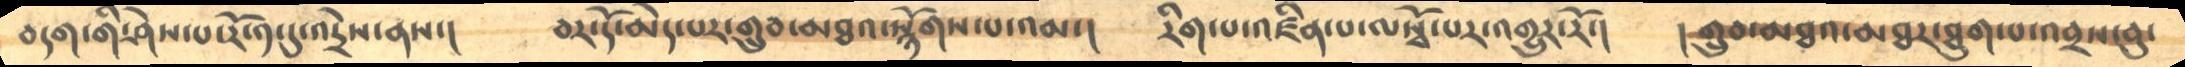བདག་གི་ཤེས་པ་རོ་༡་དུ་འདྲེས་ནས་།      བར་དོ་མེད་པར་གྲུབ་མཐའ་སྙོགས་པ་འམ་།      རིག་པ་འཛིན་པ་ལསྭོ་པར་འགྱུར་རོ་།        །གྲུབ་མཐའ་མཐར་ཐུག་པ་འབྲས་བུ་
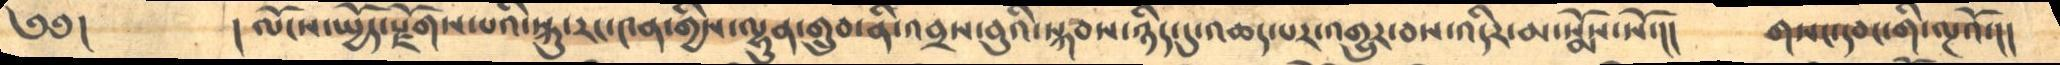༄༅།      །ལོངས་སྤྱོད་རྫོགས་པའི་སྐུ་རང་༤ན་གྱིས་ལྷུན་གྲུབ་ནི་འབྲས་བུའི་སྐབས་ཉིད་དུ་འཆད་པར་འགྱུར་བས་འདིར་མ་སྨོས་སོ་།།    གསང་དབང་གི་ལྔའོ་།།
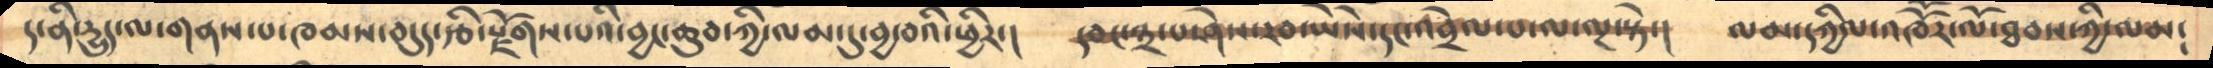ད་ནི་དྱུད་ལ་གནས་པ་ཁམས་བདུད་རྩི་རྫོགས་པའི་བྱང་ཆུབ་ཀྱི་ལམ་དུ་བྱ་བའི་ཕྱིར་།     དབང་༣་པ་ཤེས་རབ་ཡཻས་དང་འབྲེལ་པ་ལ་ལྔ་སྟེ་།   ལམ་དཀྱིལ་འཁོར་ལོ་ཐབས་ཀྱི་ལམ༴
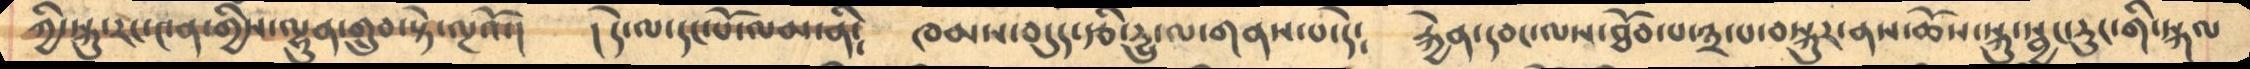ཀྱི་སྐུ་རང་༤ན་གྱིས་ལྷུན་གྲུབ་སྟེ་ལྔའོ་།     །དེ་ལ་དང་པོ་ལམ་ནི༴     ཁམས་བདུད་རྩི་དྱུ་ལ་གནས་པ་དེ༴      རྐྱེན་དབང་ལས་ཐོབ་པ་༣་པ་བསྐུར་ནས་ཆོས་སྐུ་སྦྱང་རུང་གི་སྐལ
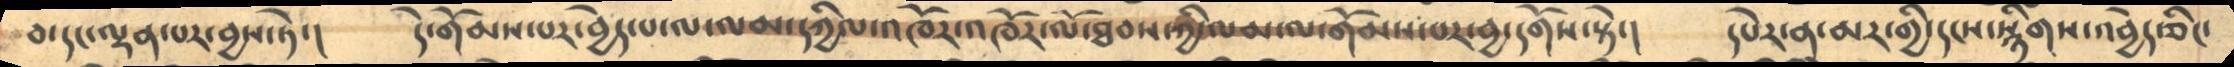བ་དང་ལྡན་པར་བྱས་ཏེ་།     དེ་གོམས་པར་བྱེད་པ་ལ་ལམ་དཀྱིལ་འཁོར་འཁོར་ལོ་ཐབས་ཀྱི་ལམ་ལ་གོམས་པར་བྱ་དགོས་སྟེ་།      དཔེར་ན་མར་གྱི་དངས་སྙིགས་འབྱེད་ཅིང་
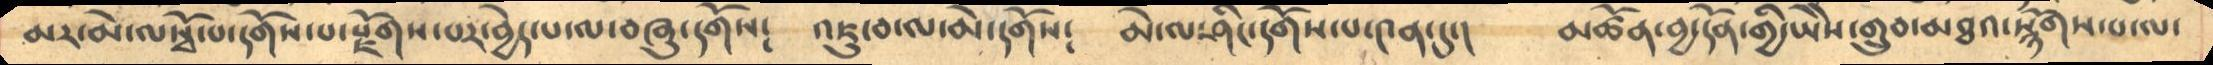མར་མེ་ལསྭོ་པ་དགོས་པ་རྫོགས་པར་བྱེད་པ་ལ་བཞུ་དགོས༴      འཇུ་བ་ལ་མེ་དགོས༴      མེ་ལ་ཤིང་དགོས་པ་༤ན་དུ་།     མཚོན་བྱ་དོན་གྱི་ཡཻས་གྲུབ་མཐའ་སྙོགས་པ་ལ་
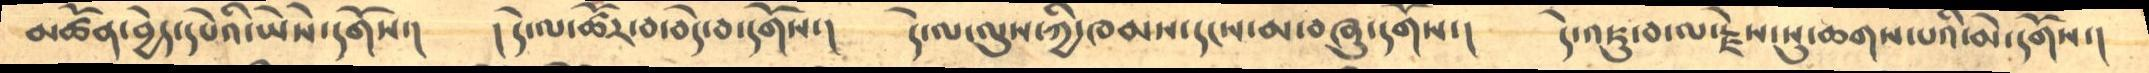མཚོན་བྱེད་དཔེའི་ཡཻས་དགོས་།        །དེ་ལ་ཚོར་བ་བདེ་བ་དགོས་།     དེ་ལ་ལུས་ཀྱི་ཁམས་དངས་མ་བཞུ་དགོས་།     དེ་འཇུ་བ་ལ་རྗེས་སུ་ཆགས་པའི་མེ་དགོས་།
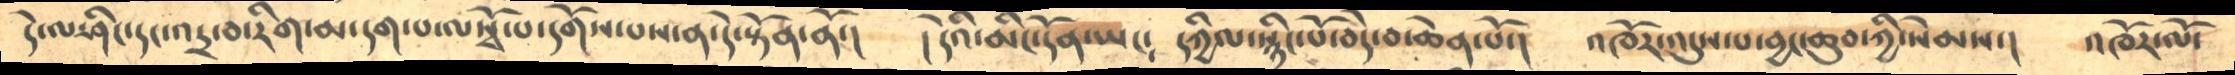དེ་ལ་ཤིང་དང་འདྲ་བ་རིག་མ་དག་པ་ལསྭོ་པ་དགོས་པས་ན་དེ་སྟོན་ནོ་།        །དེའི་མིང་དོན་ཡང༴  དཀྱིལ་སྙིང་པོ་བདེ་བ་ཆེན་པོ་།    འཁོར་འདུས་པ་བྱང་ཆུབ་ཀྱི་སེམས་།    འཁོར་ལོ་
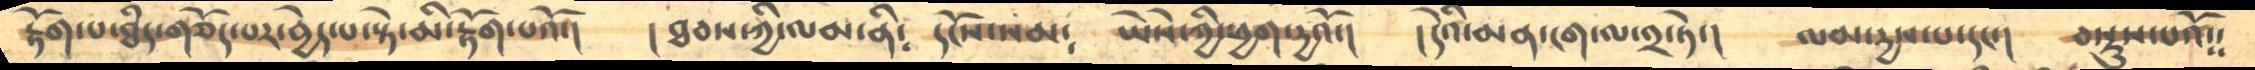རྟོག་པ་ཐཾད་གཅོད་པར་བྱེད་པ་སྟེ་མི་རྟོག་པའོ་།    ། ཐབས་ཀྱི་ལམ་ནི༴   དངོས་སམ༴    ཡཻས་ཀྱི་ཕྱག་དྱའོ་།     །དེའི་མན་ངག་ལ་༢་ཏེ་།     ལམ་དྱས་པ་དང་།    བསྡུས་པའོ༴༴
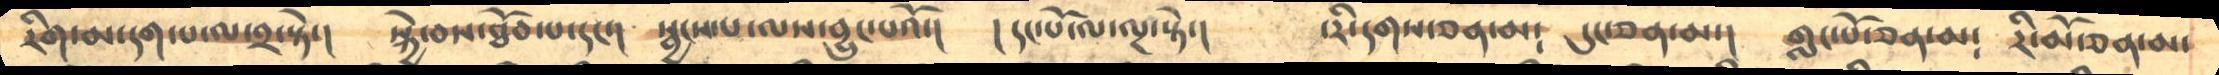རིག་མ་དག་པ་ལ་༢་སྟེ་།      སྐྱེ་བས་ཐོབ་པ་དང་།     སྦྱངས་པ་ལས་བྱུང་པའོ་།     །དང་པོ་ལ་ལྔ་སྟེ་།    ་རི་དགས་ཅན་མ༴   དུང་ཅན་མ་།     གླང་པོ་ཅན་མ༴    རི་མོ་ཅན་མ་
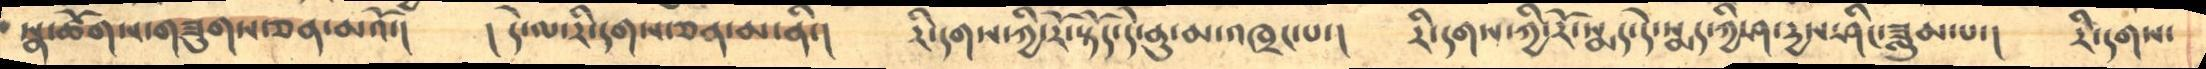སྣ་ཚོགས་གཟུགས་ཅན་མའོ་།       །དེ་ལ་རི་དགས་ཅན་མ་ནི་།     རི་དགས་ཀྱི་རོ་སྟོད་དེ་ནུ་མ་འཁྲང་པ་།    རི་དགས་ཀྱི་རོ་སྨད་དེ་སྨད་ཀྱི་ཤ་དྱས་ཤིང་ཟླུམ་པ་།   རི་དགས
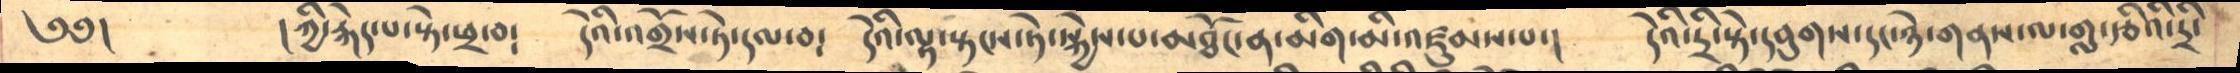༄༅།       །ཀྱི་རྐེད་པ་སྟེ་ཕྲ་བ༴     དེའི་འགྲོས་ཏེ་དལ་བ༴    དེའི་ལྟ་སྟངས་ཏེ་སྐྱེས་པ་མཐོང་ན་མིག་མི་འཛུམས་པ་།     དེའི་དྲི་སྟེ་དབུགས་དང་ཉེ་གནས་ལ་གླ་རྩིའི་དྲི་
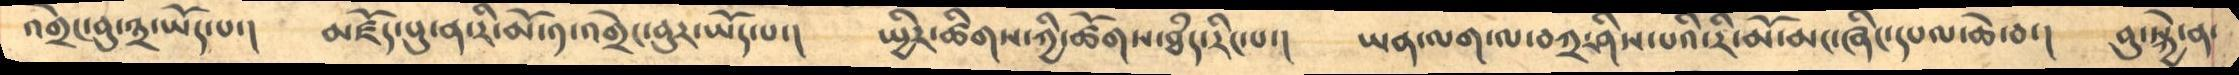འགྲེང་བུ་༣་ཡོད་པ་།     མཛོད་པུ་ན་རི་མོ་༡་འགྲེང་བུར་ཡོད་པ་།     སྤྱིར་ཚིགས་ཀྱི་ཚོགས་ཐཾད་རིང་པ་།     ཡན་ལག་ལ་བཀྲ་ཤིས་པའི་རི་མོ་མང་ཞིང་དཔལ་ཆེ་བ་།   བུ་སྐྱེ་ན་
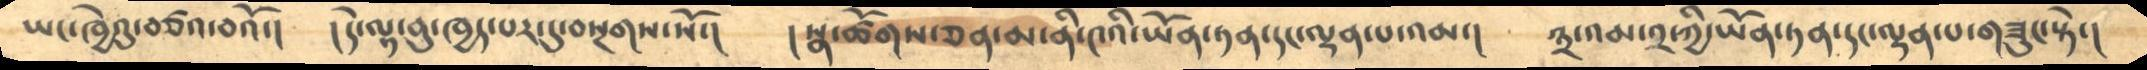ཡང་ཁྱེའུ་བཙའ་བའོ་།    །དེ་ལྟ་བུ་ཁྱད་པར་དུ་བསྔགས་སོ་།      །སྣ་ཚོགས་ཅན་མ་ནི་༤འི་ཡོན་ཏན་དང་ལྡན་པ་འམ་།   ༣་འམ་༢་ཀྱི་ཡོན་ཏན་དང་ལྡན་པ་གཟུང་སྟེ་།
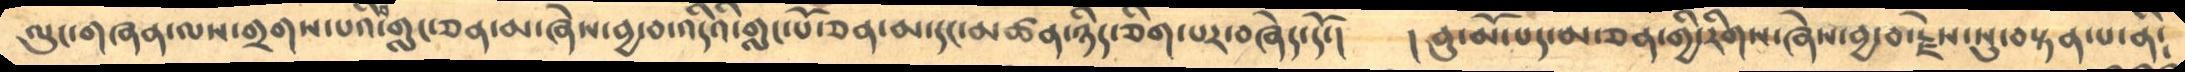ལུང་གཞན་ལས་གྲགས་པའི་གླང་ཅན་མ་ཞེས་བྱ་བ་འདིའི་གླང་པོཅན་མ་དང་མཚན་ཉིད་ཅིག་པར་བཞེད་དོ་།     །བུ་མོ་པད་མ་ཅན་གྱི་རིགས་ཞེས་བྱ་བ་རྗེས་སུ་བསྟན་པ་ནི༴
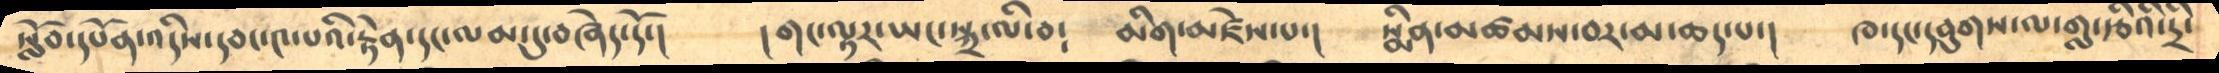སློབ་དཔོན་འདིས་དབང་༤་པའི་རྟེན་དང་ལམ་དུ་བཞེད་དོ་།       །གང་ལྟར་ཡང་སྐྲ་ལི་བ༴    མིག་མཛེས་པ་།     སྨིན་མཚམས་བར་མ་ཆད་པ་།    ཁ་དང་དབུགས་ལ་གླ་རྩིའི་དྲི་
